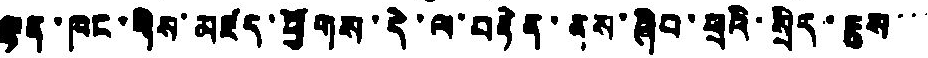ལྷན་ཁང་གིས་མཛད་ཕྱོགས་དེ་ལ་བརྟེན་ནས་ཞིབ་ཕྲའི་སྲིད་ཇུས་་་
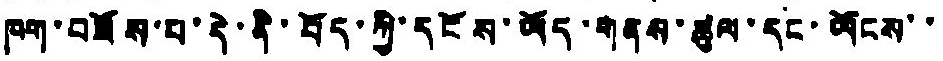ཁག་བཟོས་པ་དེ་ནི་བོད་ཀྱི་དངོས་ཡོད་གནས་ཚུལ་དང་ཡོངས་་
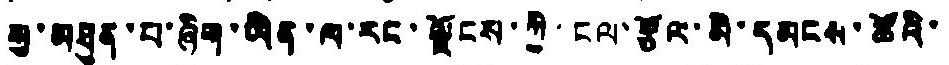སུ་མཐུན་པ་ཞིག་ཡིན་ལ་རང་ལྗོངས་ཀྱི་ངལ་རྩོལ་མི་དམངས་ཚོའི་
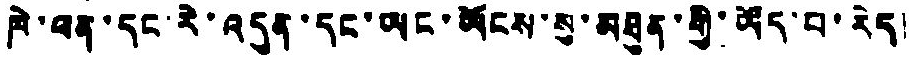ཁེ་ཕན་དང་རེ་འདུན་དང་ཡང་ཡོངས་སུ་མཐུན་གྱི་ཡོད་པ་རེད།
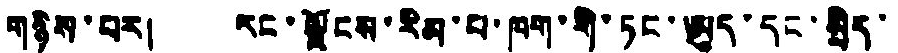གཉིས་པར། རང་ལྗོངས་རིམ་པ་ཁག་གི་ཏང་ཨུད་དང་སྲིད་
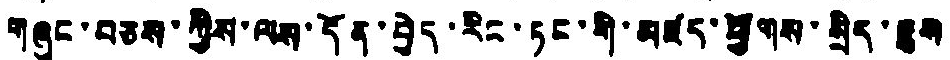གཞུང་བཅས་ཀྱིས་ལས་དོན་བྱེད་རིང་ཏང་གི་མཛད་ཕྱོགས་སྲིད་ཇུས
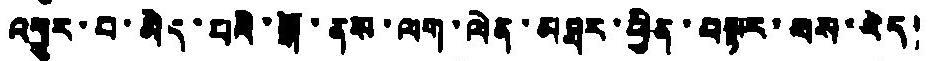འགྱུར་བ་མེད་པའི་སྒོ་ནས་ལག་ལེན་མཐར་ཕྱིན་བསྟར་བས་རེད།
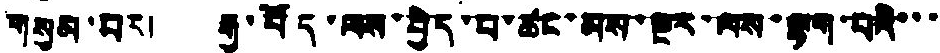གསུམ་པར། རྒྱ་བོད་ལས་བྱེད་པ་ཚང་མས་སྔར་ལས་ལྷག་པའི་་་
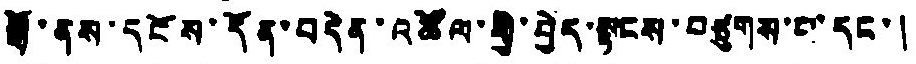སྒོ་ནས་དངོས་དོན་བདེན་འཚོལ་གྱི་བྱེད་སྟངས་བཙུགས་པ་དང་།
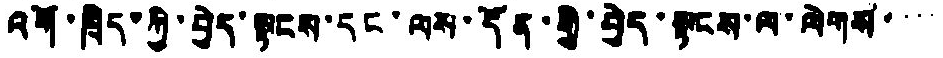འགོ་ཁྲིད་ཀྱི་བྱེད་སྟངས་དང་ལས་དོན་གྱི་བྱེད་སྟངས་ལ་ལེགས་་་་་
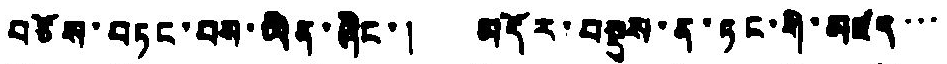བཅོས་བཏང་བས་ཡིན་ཞིང་། མདོར་བསྡུས་ན་ཏང་གི་མཛད་་་
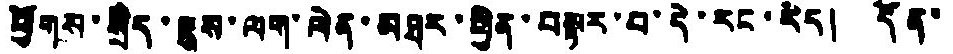ཕྱོགས་སྲིད་ཇུས་ལག་ལེན་མཐར་ཕྱིན་བསྟར་བ་དེ་རང་རེད། དོན་
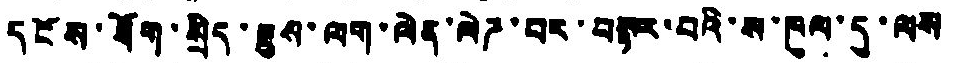དངོས་ཐོག་སྲིད་ཇུས་ལག་ལེན་ལེཌ་བར་བསྟར་བའི་ས་ཁུལ་དུ་ལས
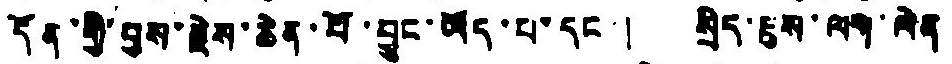དོན་གྱི་བྱས་རྗེས་ཆེན་པོ་བྱུང་ཡོད་པ་དང་། སྲིད་ཇུས་ལག་ལེན
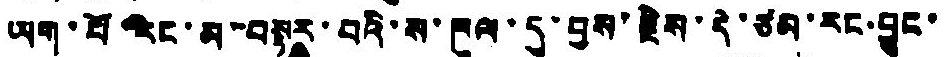ཡག་པོ་རང་མ་བསྟར་བའི་ས་ཁུལ་དུ་བྱས་རྗེས་དེ་ཙམ་རང་བྱུང་
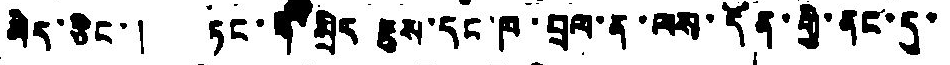མེད་ཅིང་། ཏང་གི་སྲིད ཇུས་དང་ཁ་བྲལ་ན་ལས་དོན་གྱི་ནང་དུ་
